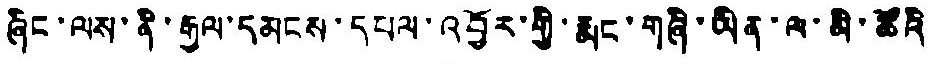ཞིང་ལས་ནི་རྒྱལ་དམངས་དཔལ་འབྱོར་གྱི་རྨང་གཞི་ཡིན་ལ་མི་ཚོའི
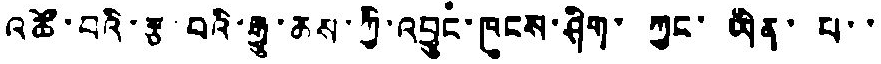འཚོ་བའི་རྩ བའི་རྒྱུ་ཆས་ཀྱི་འབྱུང་ཁུངས་ཤིག་ ཀྱང་ ཡིན་པ་་
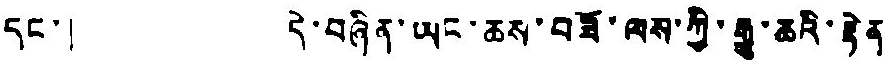དང་། དེ་བཞིན་ཡང་ཆས་བཟོ་ལས་ཀྱི་རྒྱུ་ཆའི་རྟེན
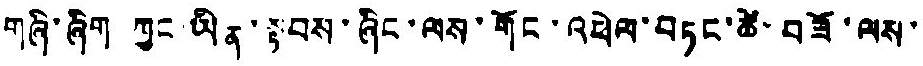གཞི་ཞིག ཀྱང ཡིན་སྟབས་ཞིང་ལས་གོང་འཕེལ་བཏང་ཚེ་བཟོ་ལས་
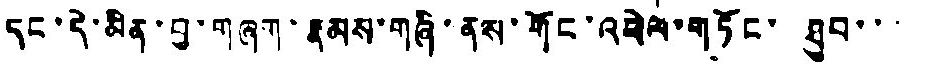དང་དེ་མིན་བྱ་གཞག་རྣམས་གཞི་ནས་གོང་འཕེལ་གཏོང་ཐུབ་་་
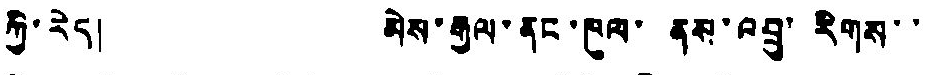ཀྱི་རེད། མེས་རྒྱལ་ནང་ཁུལ་ ནས་འབྲུ་རིགས་་
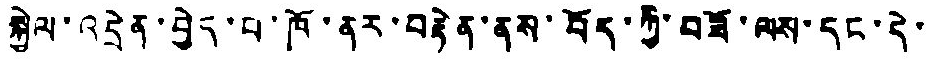སྐྱེལ་འདྲེན་བྱེད་པ་ཁོ་ནར་བརྟེན་ནས་བོད་ཀྱི་བཟོ་ལས་དང་དེ་
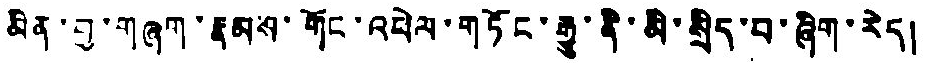མིན་བྱ་གཞག་རྣམས་གོང་འཕེལ་གཏོང་རྒྱུ་ནི་མི་སྲིད་བ་ཞིག་རེད།
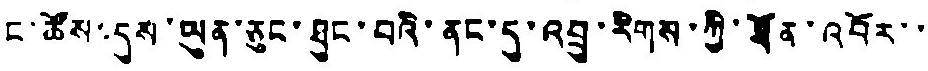ང་ཚོས་དུས་ཡུན་ཅུང་ཐུང་བའི་ནང་དུ་འབྲུ་རིགས་ཀྱི་ཐོན་འབོར་་
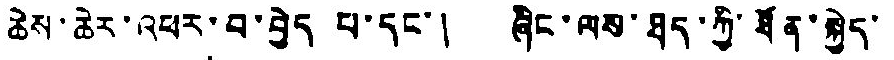ཆེས་ཆེར་འཕར་བ་བྱེད པ་དང་། ཞིང་ལས་ཐད་ཀྱི་ཐོན་སྐྱེད་
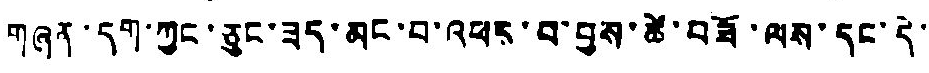གཞན་དག་ཀྱང་ཅུང་ཟད་མང་བ་འཕར་བ་བྱས་ཚེ་བཟོ་ལས་དང་དེ་
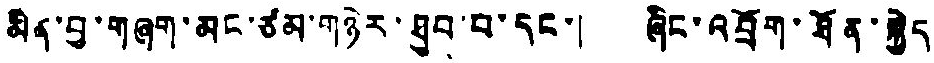མིན་བྱ་གཞག་མང་ཙམ་གཉེར་ཐུབ་པ་དང་། ཞིང་འབྲོག་ཐོན་སྐྱེད
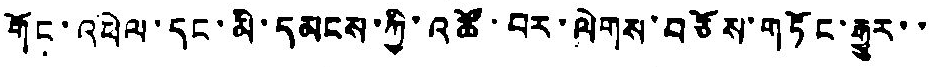གོང་འཕེལ་དང་མི་དམངས་ཀྱི་འཚོ་བར་ལེགས་བཅོས་གཏོང་རྒྱུར་་
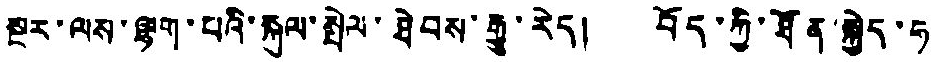སྔར་ལས་ལྷག་པའི་སྐུལ་སྤེལ་ཐེབས་རྒྱུ་རེད། བོད་ཀྱི་ཐོན་སྐྱེད་ཧ
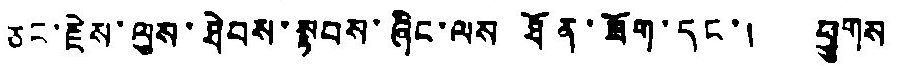ཅང་རྗེས་ལུས་ཐེབས་སྟབས་ཞིང་ལས ཐོན་ཐོག་དང་། ཕྱུགས
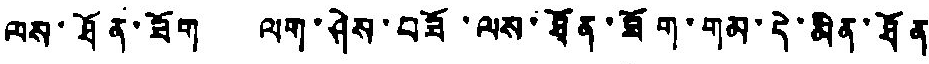ལས་ཐོན་ཟོག ལག་ཤེས་བཟོ་ལས་ཐོན་ཟོག་གམ་དེ་མིན་ཐོན
